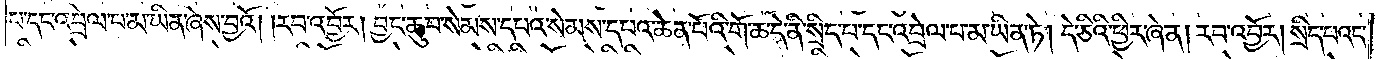པ་དང་འབྲེལ་པ་མ་ཡིན་ཞེས་བྱའོ། །རབ་འབྱོར། བྱང་ཆུབ་སེམས་དཔའ་སེམས་དཔའ་ཆེན་པོའི་གོ་ཆ་དེ་ནི་སྲིད་པ་དང་འབྲེལ་པ་མ་ཡིན་ཏེ། དེ་ཅིའི་ཕྱིར་ཞེ་ན། རབ་འབྱོར། སྲིད་པའང་
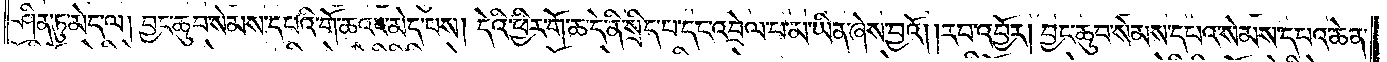ཤིན་ཏུ་མེད་ལ། བྱང་ཆུབ་སེམས་དཔའི་གོ་ཆའང་མེད་པས། དེའི་ཕྱིར་གོ་ཆ་དེ་ནི་སྲིད་པ་དང་འབྲེལ་པ་མ་ཡིན་ཞེས་བྱའོ། །རབ་འབྱོར། བྱང་ཆུབ་སེམས་དཔའ་སེམས་དཔའ་ཆེན་
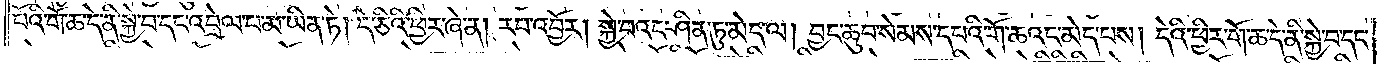པོའི་གོ་ཆ་དེ་ནི་སྐྱེ་བ་དང་འབྲེལ་པ་མ་ཡིན་ཏེ། དེ་ཅིའི་ཕྱིར་ཞེ་ན། རབ་འབྱོར། སྐྱེ་བའང་ཤིན་ཏུ་མེད་ལ། བྱང་ཆུབ་སེམས་དཔའི་གོ་ཆའང་མེད་པས། དེའི་ཕྱིར་གོ་ཆ་དེ་ནི་སྐྱེ་བ་དང་
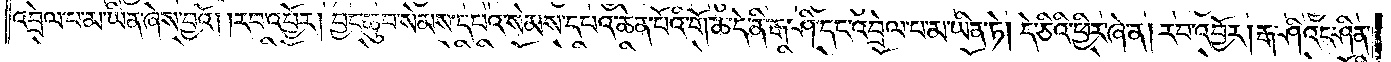འབྲེལ་པ་མ་ཡིན་ཞེས་བྱའོ། །རབ་འབྱོར། བྱང་ཆུབ་སེམས་དཔའི་སེམས་དཔའ་ཆེན་པོའི་གོ་ཆ་དེ་ནི་རྒ་ཤི་དང་འབྲེལ་པ་མ་ཡིན་ཏེ། དེ་ཅིའི་ཕྱིར་ཞེ་ན། རབ་འབྱོར། རྒ་ཤིའང་ཤིན་
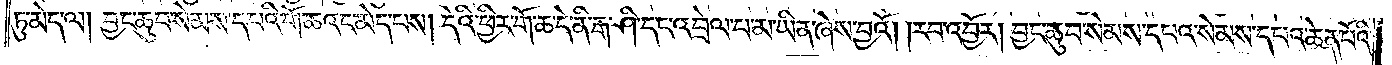ཏུ་མེད་ལ། བྱང་ཆུབ་སེམས་དཔའི་གོ་ཆའང་མེད་པས། དེའི་ཕྱིར་གོ་ཆ་དེ་ནི་རྒ་ཤི་དང་འབྲེལ་པ་མ་ཡིན་ཞེས་བྱའོ། །རབ་འབྱོར། བྱང་ཆུབ་སེམས་དཔའ་སེམས་དཔའ་ཆེན་པོའི་
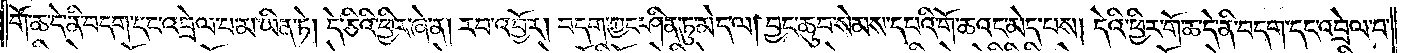གོ་ཆ་དེ་ནི་བདག་དང་འབྲེལ་པ་མ་ཡིན་ཏེ། དེ་ཅིའི་ཕྱིར་ཞེ་ན། རབ་འབྱོར། བདག་ཀྱང་ཤིན་ཏུ་མེད་ལ། བྱང་ཆུབ་སེམས་དཔའི་གོ་ཆའང་མེད་པས། དེའི་ཕྱིར་གོ་ཆ་དེ་ནི་བདག་དང་འབྲེལ་བ་
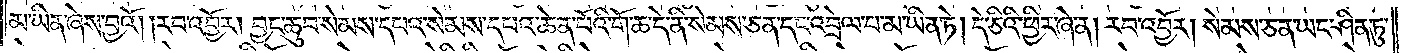མ་ཡིན་ཞེས་བྱའོ། །རབ་འབྱོར། བྱང་ཆུབ་སེམས་དཔའ་སེམས་དཔའ་ཆེན་པོའི་གོ་ཆ་དེ་ནི་སེམས་ཅན་དང་འབྲེལ་པ་མ་ཡིན་ཏེ། དེ་ཅིའི་ཕྱིར་ཞེ་ན། རབ་འབྱོར། སེམས་ཅན་ཡང་ཤིན་ཏུ་
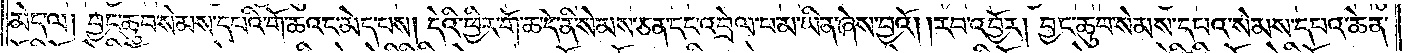མེད་ལ། བྱང་ཆུབ་སེམས་དཔའི་གོ་ཆའང་མེད་པས། དེའི་ཕྱིར་གོ་ཆ་དེ་ནི་སེམས་ཅན་དང་འབྲེལ་པ་མ་ཡིན་ཞེས་བྱའོ། །རབ་འབྱོར། བྱང་ཆུབ་སེམས་དཔའ་སེམས་དཔའ་ཆེན་
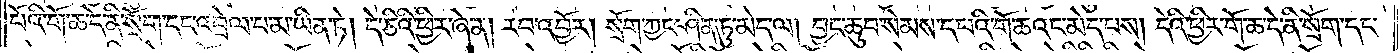པོའི་གོ་ཆ་དེ་ནི་སྲོག་དང་འབྲེལ་པ་མ་ཡིན་ཏེ། དེ་ཅིའི་ཕྱིར་ཞེ་ན། རབ་འབྱོར། སྲོག་ཀྱང་ཤིན་ཏུ་མེད་ལ། བྱང་ཆུབ་སེམས་དཔའི་གོ་ཆའང་མེད་པས། དེའི་ཕྱིར་གོ་ཆ་དེ་ནི་སྲོག་དང་
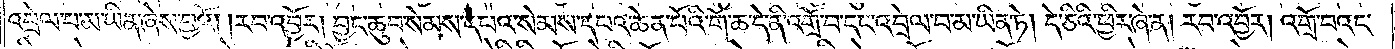འབྲེལ་པ་མ་ཡིན་ཞེས་བྱའོ། །རབ་འབྱོར། བྱང་ཆུབ་སེམས་དཔའ་སེམས་དཔའ་ཆེན་པོའི་གོ་ཆ་དེ་ནི་འགྲོ་བ་དང་འབྲེལ་པ་མ་ཡིན་ཏེ། དེ་ཅིའི་ཕྱིར་ཞེ་ན། རབ་འབྱོར། འགྲོ་བའང་
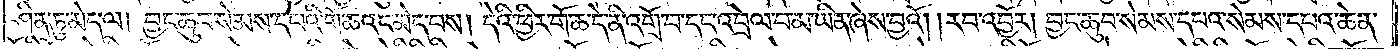ཤིན་ཏུ་མེད་ལ། བྱང་ཆུབ་སེམས་དཔའི་གོ་ཆའང་མེད་པས། དེའི་ཕྱིར་གོ་ཆ་དེ་ནི་འགྲོ་བ་དང་འབྲེལ་པ་མ་ཡིན་ཞེས་བྱའོ། །རབ་འབྱོར། བྱང་ཆུབ་སེམས་དཔའ་སེམས་དཔའ་ཆེན་
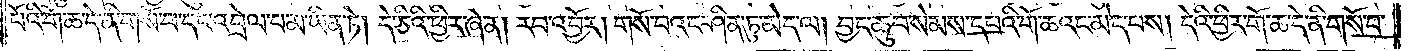པོའི་གོ་ཆ་དེ་ནི་གསོ་བ་དང་འབྲེལ་པ་མ་ཡིན་ཏེ། དེ་ཅིའི་ཕྱིར་ཞེ་ན། རབ་འབྱོར། གསོ་བའང་ཤིན་ཏུ་མེད་ལ། བྱང་ཆུབ་སེམས་དཔའི་གོ་ཆའང་མེད་པས། དེའི་ཕྱིར་གོ་ཆ་དེ་ནི་གསོ་བ་
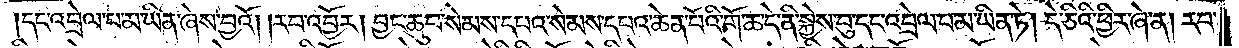དང་འབྲེལ་པ་མ་ཡིན་ཞེས་བྱའོ། །རབ་འབྱོར། བྱང་ཆུབ་སེམས་དཔའ་སེམས་དཔའ་ཆེན་པོའི་གོ་ཆ་དེ་ནི་སྐྱེས་བུ་དང་འབྲེལ་པ་མ་ཡིན་ཏེ། དེ་ཅིའི་ཕྱིར་ཞེ་ན། རབ་
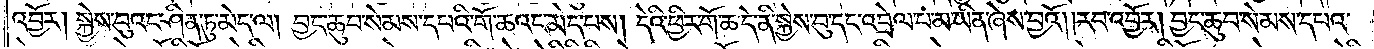འབྱོར། སྐྱེས་བུའང་ཤིན་ཏུ་མེད་ལ། བྱང་ཆུབ་སེམས་དཔའི་གོ་ཆའང་མེད་པས། དེའི་ཕྱིར་གོ་ཆ་དེ་ནི་སྐྱེས་བུ་དང་འབྲེལ་པ་མ་ཡིན་ཞེས་བྱའོ། །རབ་འབྱོར། བྱང་ཆུབ་སེམས་དཔའ་
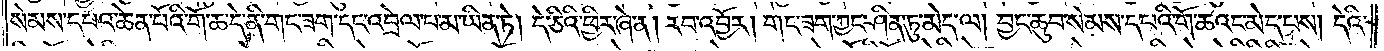སེམས་དཔའ་ཆེན་པོའི་གོ་ཆ་དེ་ནི་གང་ཟག་དང་འབྲེལ་པ་མ་ཡིན་ཏེ། དེ་ཅིའི་ཕྱིར་ཞེ་ན། རབ་འབྱོར། གང་ཟག་ཀྱང་ཤིན་ཏུ་མེད་ལ། བྱང་ཆུབ་སེམས་དཔའི་གོ་ཆའང་མེད་པས། དེའི་
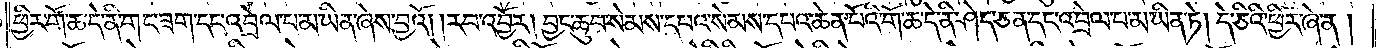ཕྱིར་གོ་ཆ་དེ་ནི་གང་ཟག་དང་འབྲེལ་པ་མ་ཡིན་ཞེས་བྱའོ། །རབ་འབྱོར། བྱང་ཆུབ་སེམས་དཔའ་སེམས་དཔའ་ཆེན་པོའི་གོ་ཆ་དེ་ནི་ཤེད་ཅན་དང་འབྲེལ་པ་མ་ཡིན་ཏེ། དེ་ཅིའི་ཕྱིར་ཞེ་ན།
